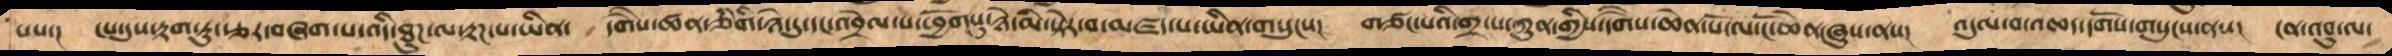པས་།   ངས་དུས་རྟག་ཏུ་རྩར་བཞག་པ་འདི་ཐུཌ་ལ་རྟཌ་པ་ཡིན།   དགཻས་ཚན་ཅིགི་ཉེ་དུ་དང་འབྲེལ་པ་ཕྱོགསུ་ཉེ་མི་སྟེར་བ་མཛད་པ་ཡིན་གསུངས།   གཙང་པའི་གྲྭ་པ་ཀུན་གྱིས་དགཻས་ཆེན་པོ་ལ་ངོ་ཆེན་ཞུས་ནས།  འདུལ་བ་འཆད་དགོས་གསུངས་ནས། ངན་འབུ་ལ་
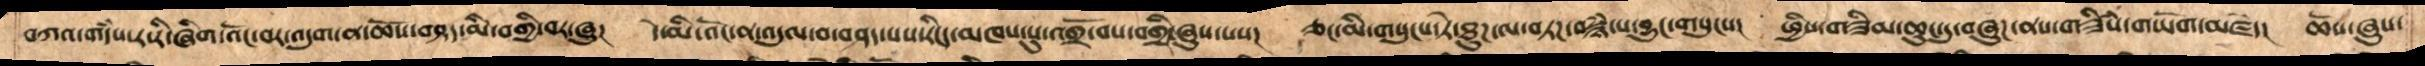བཀའ་གདཾས་ར་རི་ཞིག་འོང་བར་འདུག་ན་ཆོས་བཤད་མི་བགྱི་བར་ཞུ།   དེ་མི་འོང་ན་འདུལ་བ་བཤད་པས་རངིད་མཁས་སུ་འགྲོ་བས་བགྱི་ཞུས་པས།   ཅང་མི་གསུངས་ཏེ་ཐུཌ་ལ་བཏཌ་བསྙཾ་པ་བྱུང་གསུངས།   ཕྱིས་གཟིམ་ཆུང་དུ་བཞུཌ་ནས་གཟིསཾ་གཡོག་མཛད།   ཆོས་ཞུས་
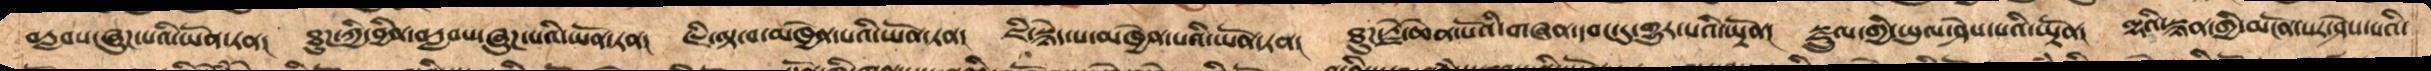བརླབས་ཞུཌ་པའི་ཡོན་ཏན།   ཐུཌ་ཀྱི་བྱིན་བརླབས་ཞུཌ་པའི་ཡོན་ཏན།   ཇི་ལྟ་བ་མཁྱེན་པའི་ཡོན་ཏན།   ཇི་སྙེད་པ་མཁྱེན་པའི་ཡོན་ཏན།   ཐུགས་རྗེ་ཆེན་པོའི་གཞན་དབང་དུ་གྱུར་པའི་ཡྟོན།   སྫྲུལ་གྱི་ཡུལ་ཤེས་པའི་ཡྟོན།   ལྷའི་སྙན་གྱི་མངོན་པར་ཤེས་པའི་
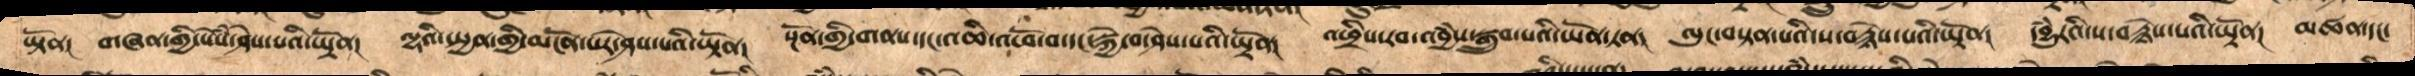ཡྟོན།   གཞན་གྱི་སེཾས་ཤེས་པའི་ཡྟོན།   ལྷའི་སྤྱན་གྱི་མངོན་པར་ཤེས་པའི་ཡྟོན།   སྔོན་གྱི་གནས་དང་འཆི་འཕོ་བ་དང་སྐྱེ་བ་ཤེས་པའི་ཡྟོན།   འཕྲིས་རབ་འབྱཾས་སྒྲུབ་པའི་ཡོན་ཏན།   ལུང་བསྟན་པའི་ས་བརྙེས་པའི་ཡྟོན།   དབྱུཾརའི་ས་བརྙེས་པའི་ཡྟོན།  མཚན་དང་
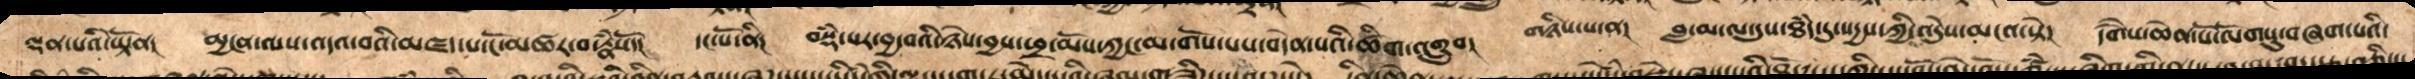ལྡན་པའི་ཡྟོན།   མྱངན་ལས་འདའ་བའི་མཛད་པ་ངོ་མཚར་བ་རྣཾསོ།   དང་པོ་ནི།    བསྡཾ་པར་བྱ་བའི་ཉེས་བྱས་ཕྲ་མོས་ཀྱང་མ་གོས་པས་བདེན་པའི་ཚིག་འགྲུབ།   གཉིས་པ་ན།   བླ་མ་ལ་དུས་ཐཾད་དུ་སདྱས་ཀྱི་འདེུས་མངའ་སྟེ།    དགཻས་ཆེན་པོ་ལོགསུ་བཞག་པའི་
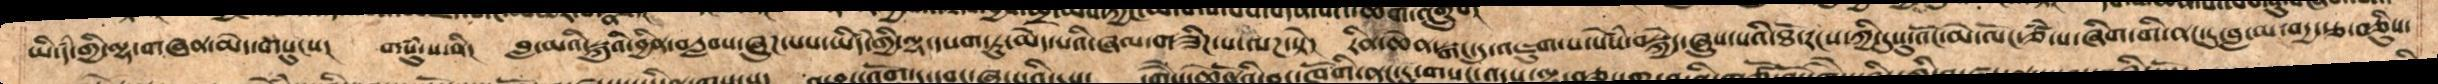ཡི་དཾ་གྱི་ལྷ་གཞན་མེད་གསུང་། གསུཾ་པ་ནི། བླ་མའི་སྐུའི་བྱིན་བརླབས་ཞུཌ་པས་ཡིདཾ་གྱི་ལྷ་དཔག་ཏུ་མེད་པའི་ཞལ་གཟིཌ་པ་ལཌ་སྟེ། རིན་ཆེན་སྒང་དུ་འཇུག་པ་སེཾས་བསྐྱེད་ཞུས་པའི་ཐོ་རངས་ཀྱི་དུསུ་འོང་མེ་ལོང་ཙཾ་པ་ཞིག་གི་ནང་དུ་བླ་མ་བདྱ་རྩ་བཅིུས་
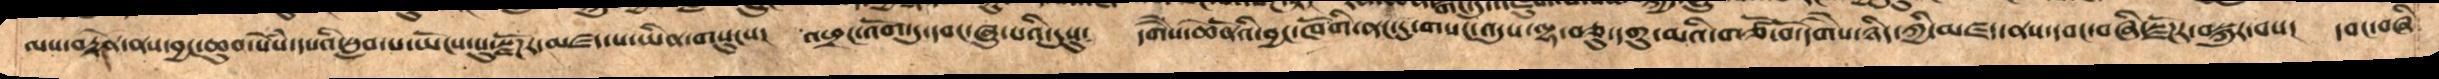ལས་བརྟེན་ནས་བྱང་ཆུབ་སེཾས་དཔའི་སླབ་པ་ཡོངས་སུ་སྫོཌར་མཛད་པ་ཡིན་གསུངས་།   འཕྲང་འོག་ཏུ་དབང་ཞུ་པའི་དུསུ།   དགཻས་ཆེནོའི་བྱང་ཁོགི་ནང་དུ་གསང་འདུས་ལྷ་བཅུ་དགུ་མའི་གཙོ་བོ་དགཻས་ཉིད་ཀྱི་མཛད་ནས་དབང་བཞི་སྫོཌཔར་བསྐུར་བས།  དབང་བཞི
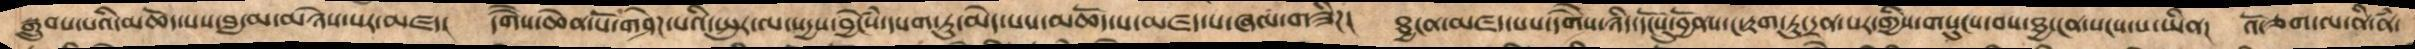སྒྲུབ་པའི་མཆོད་པས་བླ་མ་མཉེས་པར་མཛད་།   དགཻས་ཆེན་པོ་གཤེཌ་པའི་སྤུར་ལ་སདྱས་བྱེངསཾ་དཔག་ཏུ་མེད་པས་མཆོད་པ་མཛད་པ་ཞལ་གཟིཌ།   ཐྱངན་མཛད་པས་དགཻས་ཉིད་དངོསུ་བྱོནས་ང་རྟག་ཏུ་དྲན་པར་གྱིས་གསུང་བས་ཐྱ་ངན་སངས་པ་ཡིན།   འོ་ཅག་ལ་ནི་ནཾ་
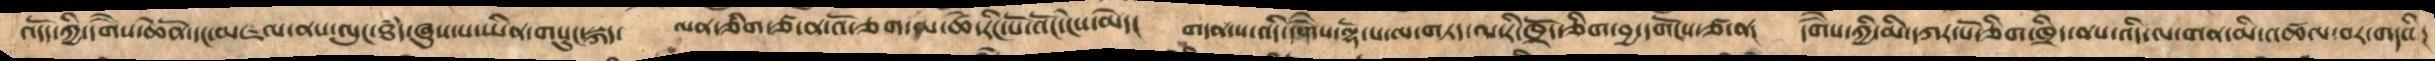འདོད་ཀྱི་དགཻས་ཆེནོ་དང་མཇལ་ནས་ལུང་ཐཾད་ཞུས་པ་ཡིན་གསུང་སྐད།   ལན་ཅིག་ཙ་ན་འོ་ཅག་ལ་ཚེ་རིང་པོ་འོང་ངེས་མེད།   གདན་ས་འདི་དགཻས་ལྷོ་པ་ལ་གཏད་ལ་རི་ཁྲོད་ཅིག་བྱ་དགོངས་ཙ་ན།   དགཻས་ཀྱི་མི་དཀར་པོ་ཅིག་ཁྲིད་ནས་འདི་ལ་གན་མི་འཚལ་བར་གདའི།
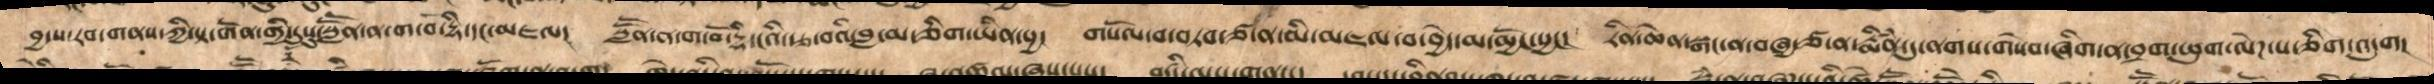བྱ་ས་རབ་གནས་ཀྱི་སྟ་གོན་གྱི་དུསུ་སླཽན་ན་ག་བོ་དྷི་དང་མཇལ། སླཽན་ནྭ་ག་བོ་བྷི་ངའི་རྩ་བའི་བླ་མ་ཅིག་ཡིན་སྱ། གསོལ་བ་བཏབ་ཙ་ན་མི་མཇལ་བ་བྱེད་མ་མྱོང་སྱང།། རིན་ཆེན་སྒང་ན་བཞྱ་ཙ་ན་རྨིནཾ་དུ་ནགས་གསེབ་ཞིག་ན་བྲག་ཕུག་ལེཌ་པ་ཅིག་འདུག །
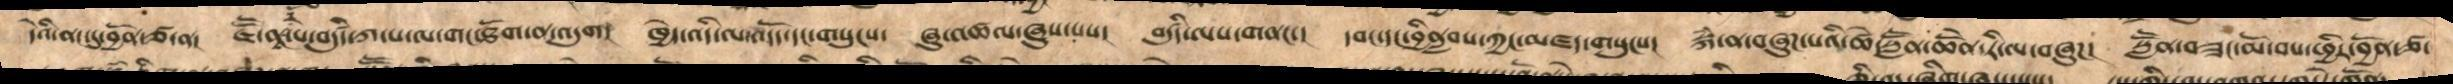དེའི་ནང་དུ་བྱོན་ཙ་ན།   ཇཽ་ནཱ་རོ་པ་བདུདརྩི་ཀ་པ་ལ་གང་ཐོག་ན་འདུག།   ཁྱེད་འདི་ལ་འདོད་དང་གསུངས།   ཞུ་འཚལ་ཞུས་པས།   བདུདརྩི་ལས་གནང་།  དབང་དང་བྱིནླབས་ཀྱང་མཛད་གསུངས།   སྐཾ་ན་བཞུཌ་པའི་ཚེ་སླཽན་ཆེནོ་རི་ལ་བཞུཌ།    སླཽན་བཟང་མོ་བས་ཕྱིར་བྱོན་ཙ་
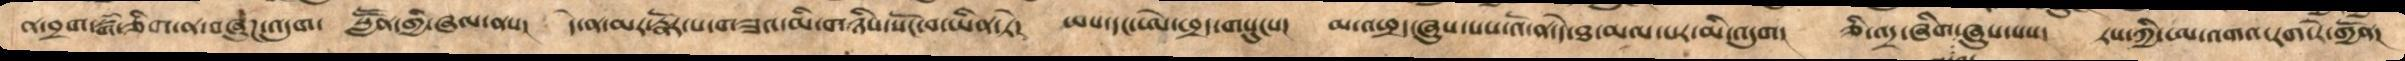ན་བྲག་སྒཾ་ཅིག་ན་བཞུཌ་འདུག་   སློབ་དཔོན་གྱི་ཞལ་ནས།   དེ་ན་མར་རྣོར་པ་བཟའ་མི་གཉིས་སོང་བ་ཡིན་ཏེ།  ཡས་དང་ཨེ་ཕྲད་གསུངས།   མ་འཕྲད་ཞུས་པས་འོ་ན་དེ་ཐ་མལ་པར་མི་འདུག།   ཅི་འདྲ་ཞིག་ཞུས་པས།  རས་ཀྱི་ཨ་འགའ་རག་རེ་གྱོན།
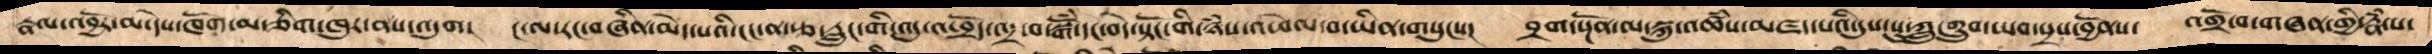རྣལ་འབྱོར་མ་དེས་ཁོག་མ་ཅིག་ཁུར་ནས་འདུག།  ང་ལ་རང་བཞིན་མེད་པའི་ངང་ན་རྩ་རླུང་གི་འདུ་འཕྲོད་འདྲ་བ་སྒོཾ་དང་བདེ་སྟོང་གི་ཉཾས་འཕེལ་བ་ཡིན་གསུངས།   བྲག་སྔོན་ལ་སྐུ་འཚཾས་མཛད་པའི་དུས་སུ་ཀླུ་གྲུབ་ཡབ་སྲས་བྱོནས་  འགྲོ་བ་གཞན་གྱི་རྣཾ་པ་
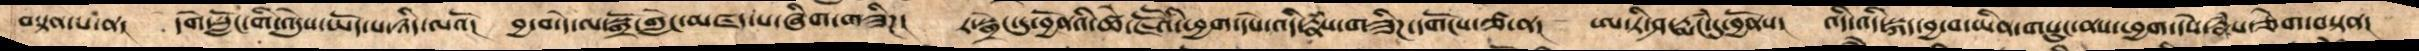བསྟན་པ་ནས།    དགེ་སློང་གི་འདེུས་ཡོད་པ་ཉིད་ལའོ།   བྱ་བ་དེ་ལ་སྒྲོ་གླེང་མཛད་པ་ཞིག་གཟིཌ།   ར་སྒྲེང་དུ་བྱོནའི་ཚེ་ཇཽའི་ཕྱག་དཔེ་འདི་རྣཾས་གཟིཌ་དགོངས་ཙ་ན།   ཨ་ཏི་ཤ་རྨངཾ་དུ་བྱོནས།    འདི་འདི་སྐད་བྱ་བ་ཡིན་གསུང་ནས་ཕྱག་དཔེ་རྣཾས་ཅེག་བསྟན།
